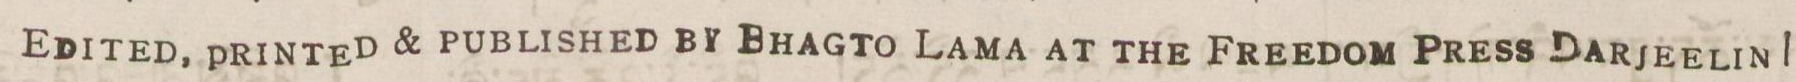EDITED, PRINTED & PUBLISHED BY BHAGTO LAMA AT THE FREEDOM PRESS DARJEELING
